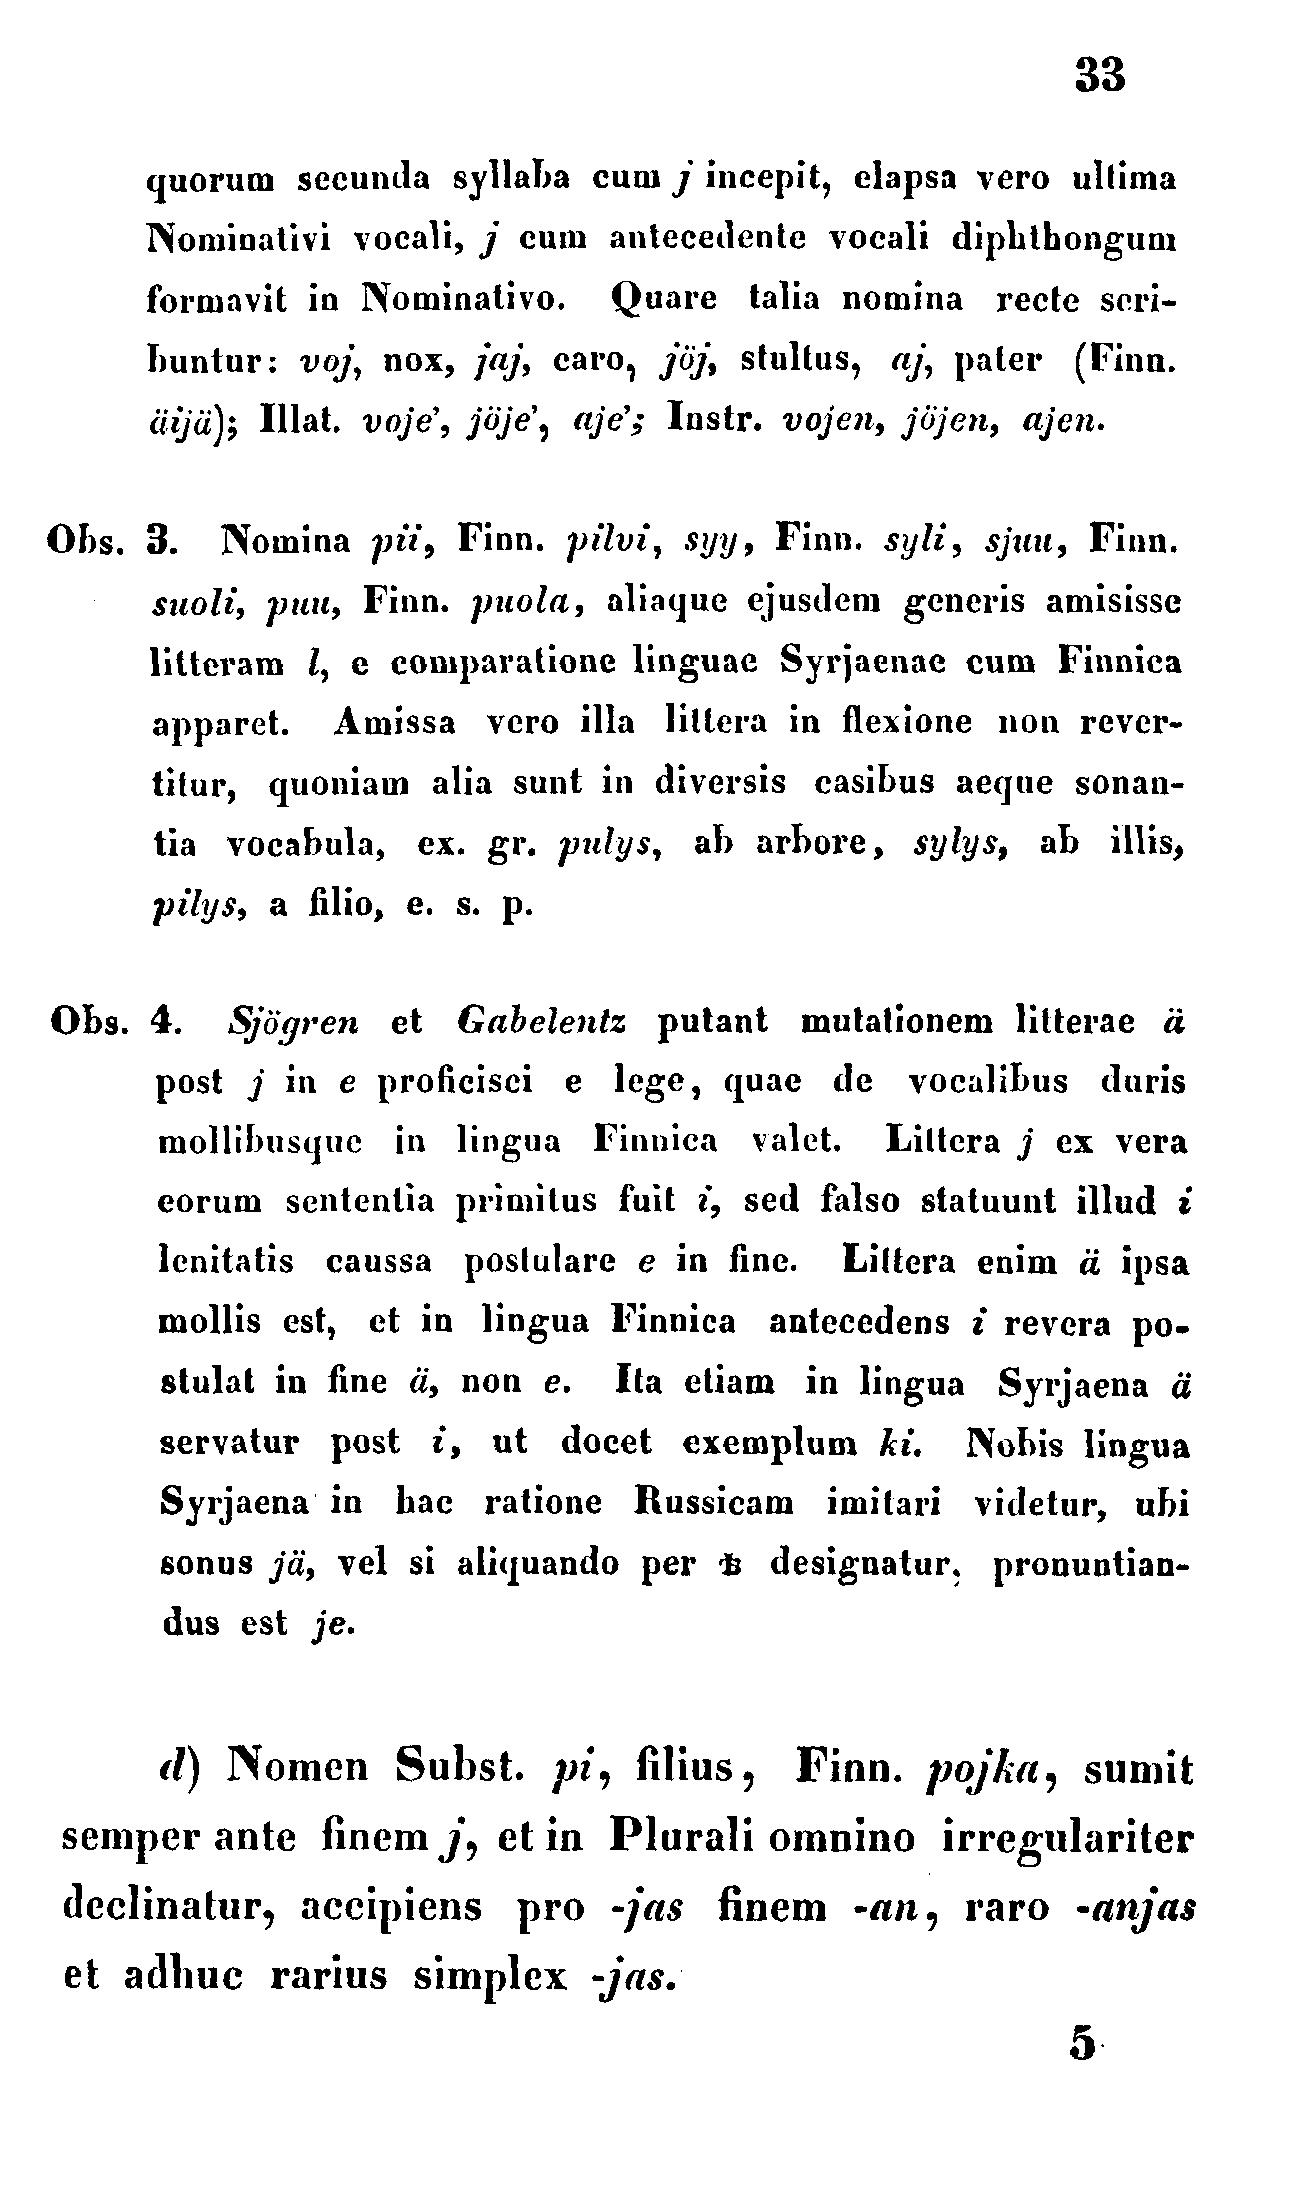33
quorum secunda syllaba cum j incepit, elapsa vero ultima
Nominativi vocali, j cum antecedente vocali diphthongum
formavit in Nominativo. Quare talia nomina recte seri-
buntur: voj, nox, jaj, caro, jöj, stultus, aj, pater (Finn.
äijä); Illat. voje', jöje', aje'; Instr. vojen, jöjen, ajen.
Obs. 3. Nomina pii, Finn. pilvi, syy, Finn. syli, sjuu, Finn.
suoli, puu, Finn. puola, aliaque ejusdem generis amisisse
litteram l, e comparatione linguae Syrjaenae cum Finnica
apparet. Amissa vero illa littera in flexione non rever-
titur, quoniam alia sunt in diversis casibus aeque sonan-
tia vocabula, ex. gr. pulys, ab arbore, sylys, ab illis,
pilys, a filio, e. s. p.
Obs. 4. Sjögren et Gabelentz putant mutationem litterae ä
post j in e proficisci e lege, quae de vocalibus duris
mollibusque in lingua Finnica valet. Littera j ex vera
eorum sententia primitus fuit i, sed falso statuunt illud i
lenitatis caussa postulare e in fine. Littera enim ä ipsa
mollis est, et in lingua Finnica antecedens i revera po-
stulat in fine ä, non e. Ita etiam in lingua Syrjaena ä
servatur post i, ut docet exemplum ki. Nobis lingua
Syrjaena in hac ratione Russicam imitari videtur, ubi
sonus jä, vel si aliquando per ѣ designatur, pronuntian-
dus est je.
d) Nomen Subst. pi, silius, Finn. pojka, sumit
semper ante finem j, et in Plurali omnino irregulariter
declinatur, accipiens pro -jas finem -an, raro -anjas
et adhuc rarius simplex -jas.
5
